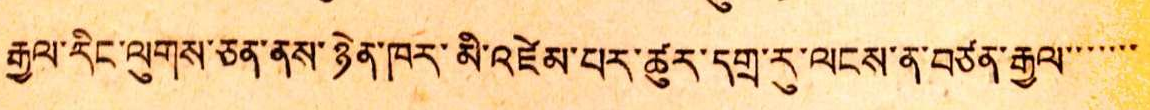རྒྱལ་རིང་ལུགས་ཅན་ནས་ཉེན་ཁར་མི་འཛེམ་པར་ཚུར་དགྲ་རུ་ལངས་ན་བཙན་རྒྱལ་་་་་
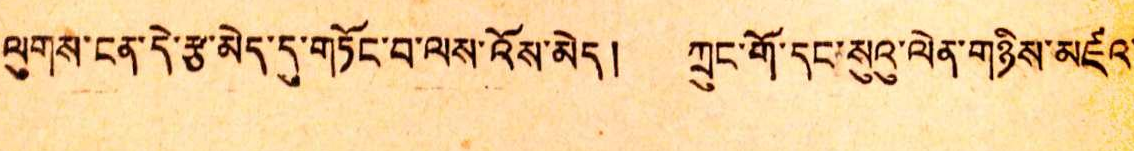ཐུགས་ངན་དེ་རྩ་མེད་དུ་གཏོང་བ་ལས་འོས་མེད ། ཀྲུང་གོ་དང་སུའུ་ལེན་གཉིས་མཛའ་
